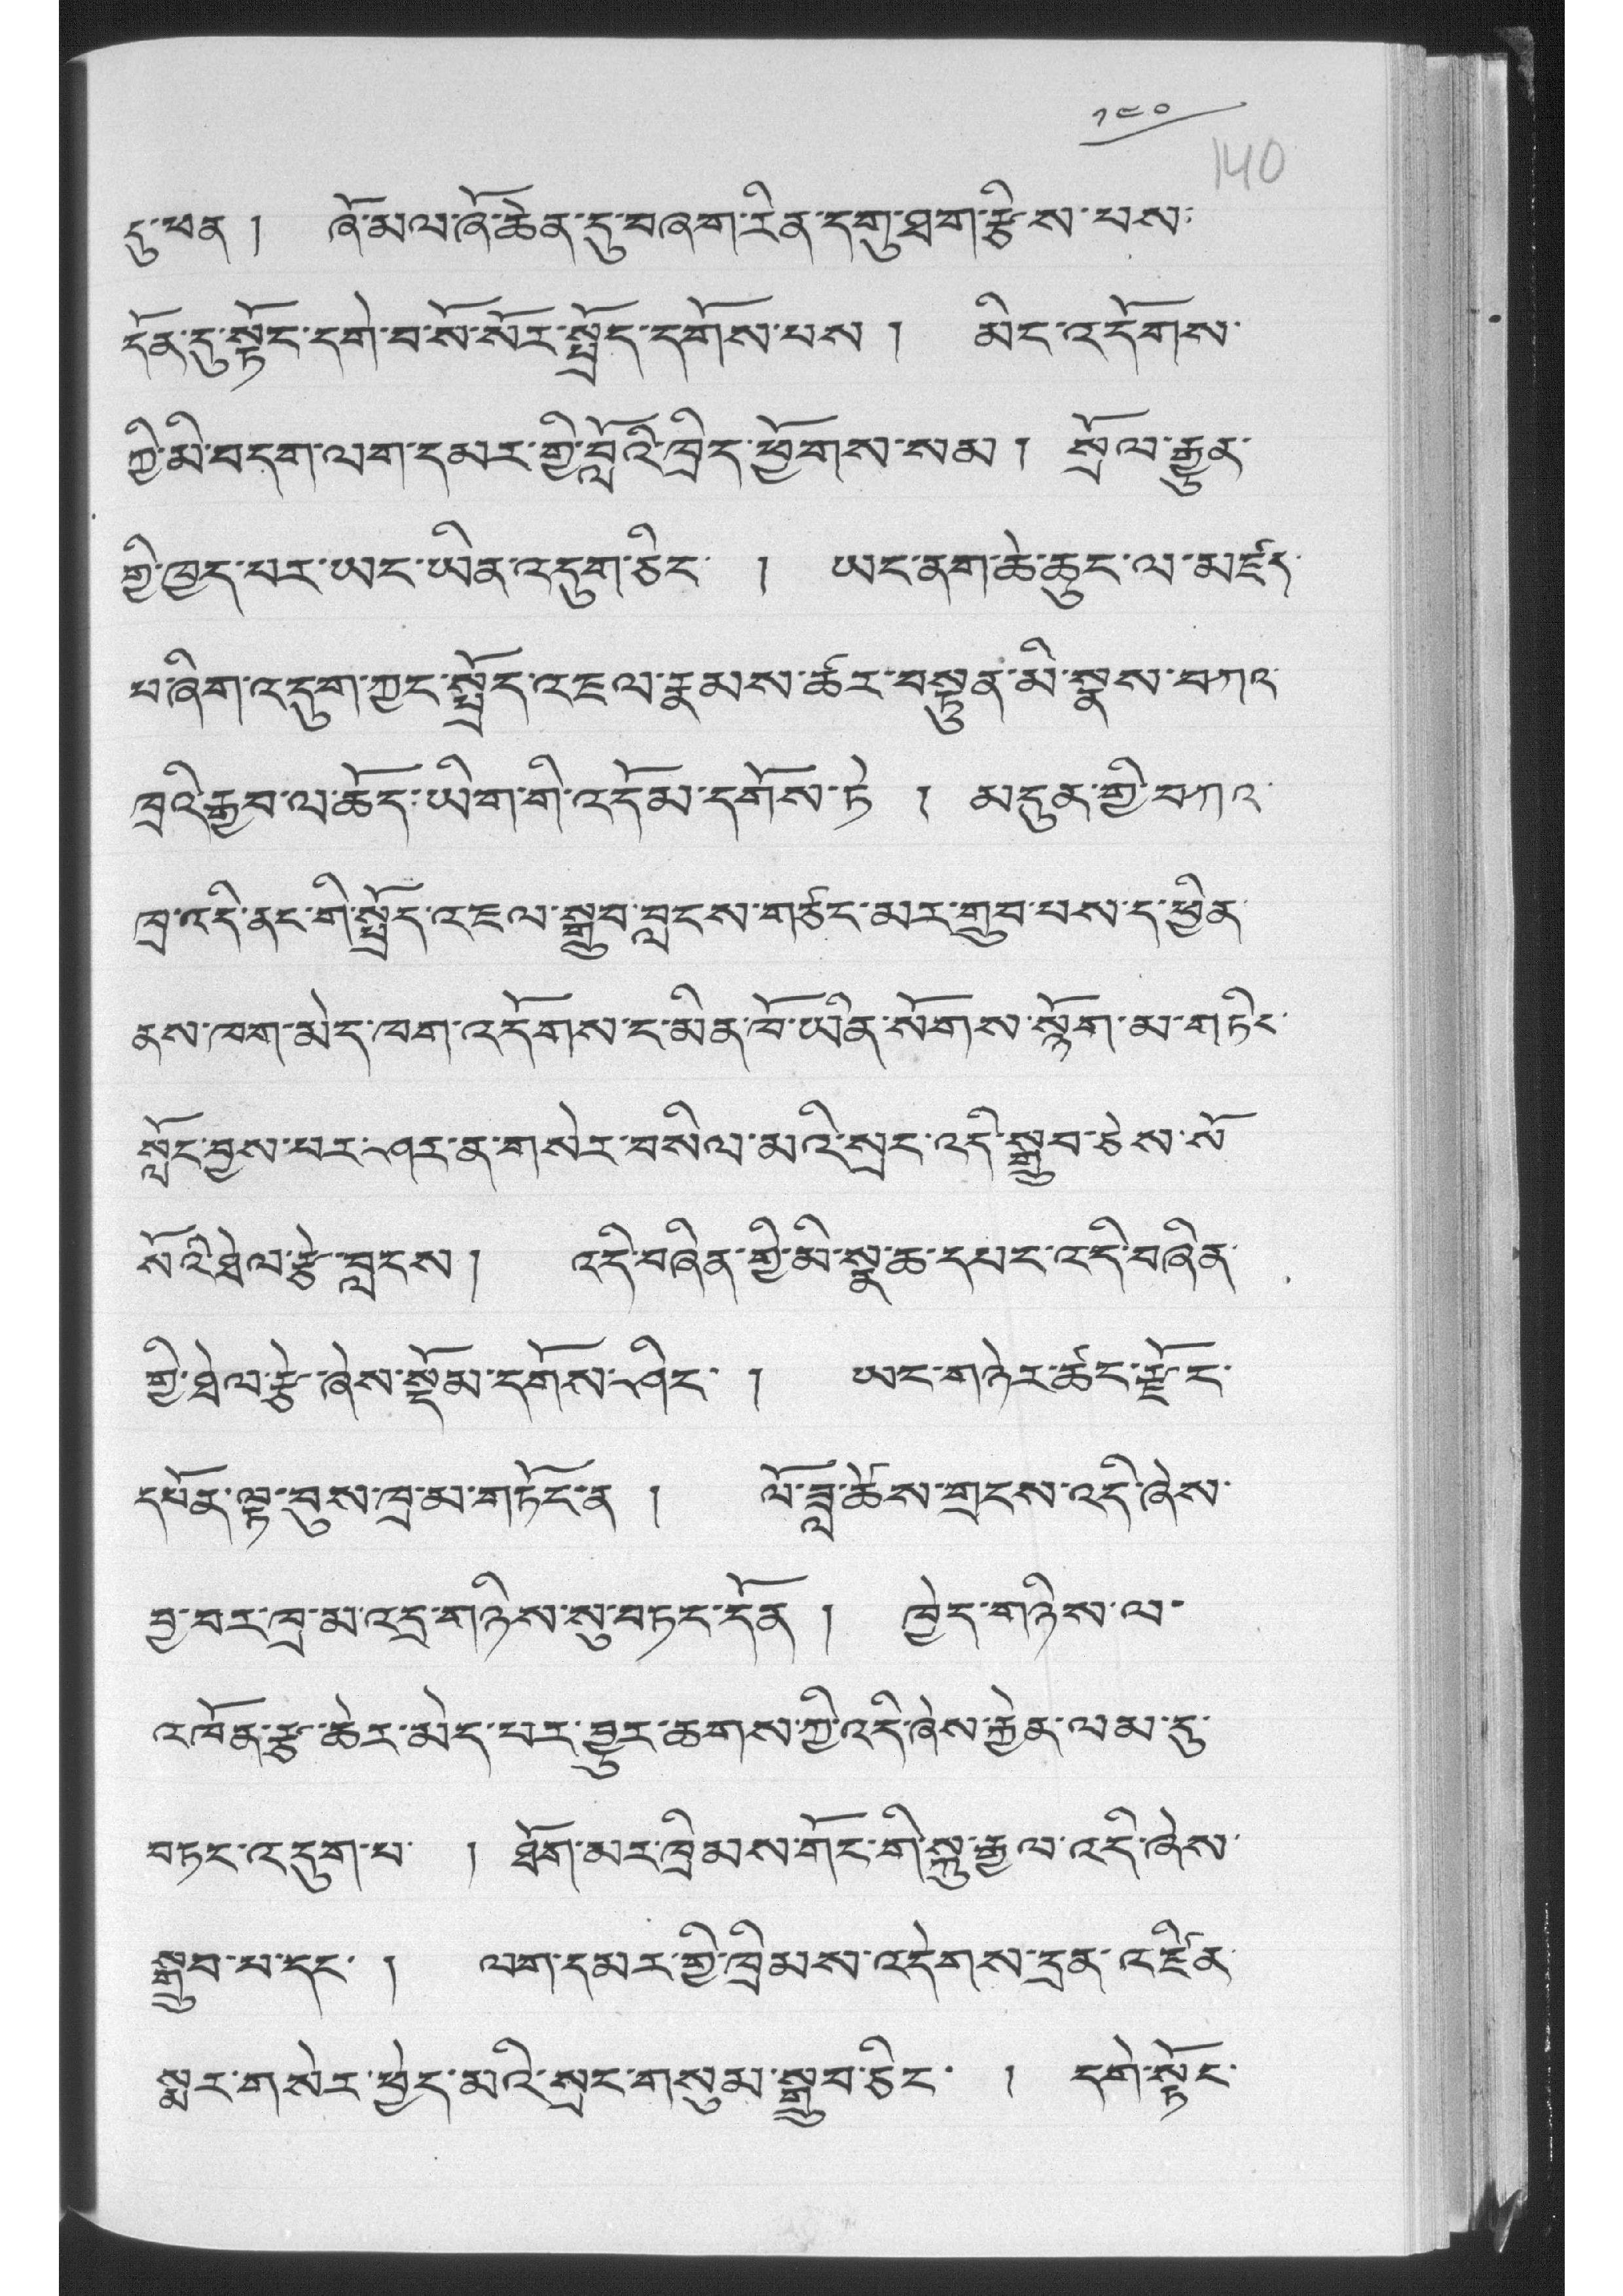༡༤༠
དུ་ཕན ། ཞོ་མལ་ཞོ་ཆེན་དུ་བཞག་རིན་དགུ་ཐག་རྩིས་པས་
དོན་དུ་སྟོང་དགེ་བ་སོ་སོར་སྤྲོད་དགོས་པས ། མིང་འདོགས་
ཀྱི་མི་བདག་ལག་དམར་གྱི་བློའི་ཁྲིད་ཕྱོགས་སམ། སྲོལ་རྒྱུན་
གྱི་ཁྱད་པར་ཡང་ཡིན་འདུག་ཅིང་ ། ཡང་ནག་ཆེ་ཆུང་ལ་མཛད་
པ་ཞིག་འདུག་ཀྱང་སྤྲོད་འཇལ་རྣམས་ཚར་བསྟུན་མི་སྣས་བཀའ་
ཁྲའི་རྒྱབ་ལ་ཆོད་ཡིག་གི་འདོམ་དགོས་ཏེ ། མདུན་གྱི་བཀའ་
ཁྲ་འདི་ནང་གི་སྤྲོད་འཇལ་སྒྲུབ་བླངས་གཙང་མར་གྲུབ་པས་ད་ཕྱིན་
ནས་ཁག་མེད་ཁག་འདོགས་ང་མིན་ཁོ་ཡིན་སོགས་སྙོག་མ་གཏིང་
སློང་བྱས་པར་ཤར་ན་གསེར་བསིལ་མའི་སྲང་འདི་སྒྲུབ་ཅེས་སོ་
སོའི་ཐེལ་རྩེ་བླངས། འདི་བཞིན་གྱི་མི་སྣ་ཆ་དཔང་འདི་བཞིན་
གྱི་ཐེལ་རྩེ་ཞེས་སྡོམ་དགོས་ཤིང་ ། ཡང་གཉེར་ཚང་རྫོང་
དཔོན་ལྟ་བུས་ཁྲ་མ་གཏོང་ན ། ལོ་ཟླ་ཚེས་གྲངས་འདི་ཞེས་
བྱ་བར་ཁྲ་མ་འདྲ་གཉིས་སུ་བཏང་དོན ། ཁྱེད་གཉིས་ལ་
འཁོན་རྩ་ཆེར་མེད་པར་བྱུར་ཆགས་ཀྱི་འདི་ཞེས་རྐྱེན་ལམ་དུ་
བཏང་འདུག་པ་ ། ཐོག་མར་ཁྲིམས་གོང་གི་སྐུ་རྒྱལ་འདི་ཞེས་
སྒྲུབ་པ་དང་ ། ལག་དམར་གྱི་ཁྲིམས་འདེགས་དྲན་འཛིན་
སྨར་གསེར་ཕྱེད་མའི་སྲང་གསུམ་སྒྲུབ་ཅིང་ ། དགེ་སྟོང་
